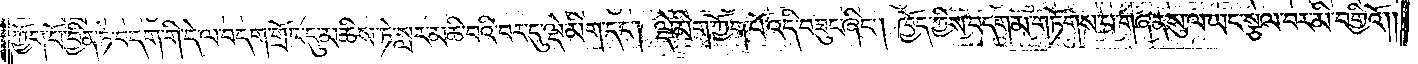ཀྱོག་པོ་བྱིན་ཏེ་བདག་གི་དེ་ལ་བདག་གྲོང་དུ་མཆིས་ཏེ་སླར་མཆི་བའི་བར་དུ་ལྡེ་མིག་དང༌། ལྡེ་མིག་ཀྱོག་པོ་འདི་བཟུང་ཞིང༌། ཁྱོད་ཀྱིས་བདག་མ་གཏོགས་པ་གཞན་སུ་ལ་ཡང་སྩལ་བར་མི་བགྱིའོ༎
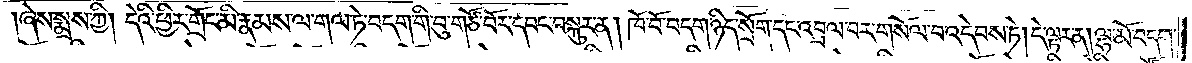།ཞེས་སྨྲས་ཀྱི། དེའི་ཕྱིར་གྲོང་མི་རྣམས་ལ་གལ་ཏེ་བདག་གི་བུ་གཙོ་བོར་དབང་བསྐུར་ན། ཁོ་བོ་བདག་ཉིད་སྲོག་དང་འབྲལ་བར་གསོལ་བ་འདེབས་ཏེ། དེ་ལྟར་ན། ལྷ་མོ་བདག་
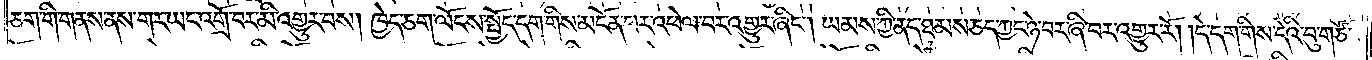ཅག་གི་གནས་ནས་གར་ཡང་འགྲོ་བར་མི་འགྱུར་བས། ཁྱེད་ཅག་ལོངས་སྤྱོད་དག་གིས་མངོན་པར་འཕེལ་བར་འགྱུར་ཞིང༌། ཡམས་ཀྱི་ནད་ཐམས་ཅད་ཀྱང་ཉེ་བར་ཞི་བར་འགྱུར་རོ། །དེ་དག་གིས་དེའི་བུ་གཙོ་
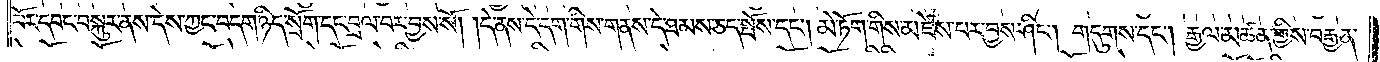བོར་དབང་བསྐུར་ནས་དེས་ཀྱང་བདག་ཉིད་སྲོག་དང་བྲལ་བར་བྱས་སོ། །དེ་ནས་དེ་དག་གིས་གནས་དེ་ཐམས་ཅད་སྤོས་དང༌། མེ་ཏོག་གིས་མཛེས་པར་བྱས་ཤིང༌། གདུགས་དང༌། རྒྱལ་མཚན་གྱིས་བརྒྱན་
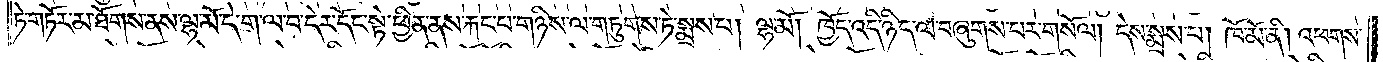ཏེ་གཏོར་མ་ཐོགས་ནས་ལྷ་མོ་དེ་ག་ལ་བ་དེར་དོང་སྟེ་ཕྱིན་ནས་རྐང་པ་གཉིས་ལ་གཏུགས་ཏེ་སྨྲས་པ། ལྷ་མོ། ཁྱོད་འདི་ཉིད་ལ་བཞུགས་པར་གསོལ། དེས་སྨྲས་པ། ཁོ་མོ་ནི། འཕགས་
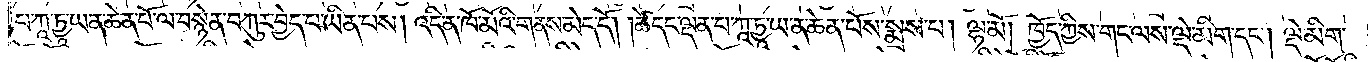པ་ཀཱ་ཏྱཱ་ཡ་ན་ཆེན་པོ་ལ་བསྙེན་བཀུར་བྱེད་པ་ཡིན་པས། འདི་ན་ཁོ་མོའི་གནས་མེད་དོ། །ཚེ་དང་ལྡན་པ་ཀཱ་ཏྱཱ་ཡ་ན་ཆེན་པོས་སྨྲས་པ། ལྷ་མོ། ཁྱོད་ཀྱིས་གང་ལས་ལྡེ་མིག་དང༌། ལྡེ་མིག་
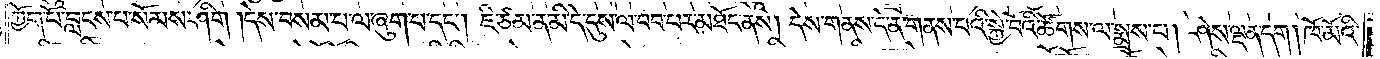ཀྱོག་པོ་བླངས་པ་སོམས་ཤིག །དེས་བསམ་པ་ལ་ཞུག་པ་དང༌། ཇི་ཙམ་ན་མི་དེ་དུས་ལ་བབ་པར་མཐོང་ནས། དེས་གནས་དེ་ན་གནས་པའི་སྐྱེ་བོའི་ཚོགས་ལ་སྨྲས་པ། ཤེས་ལྡན་དག། ཁོ་མོའི་
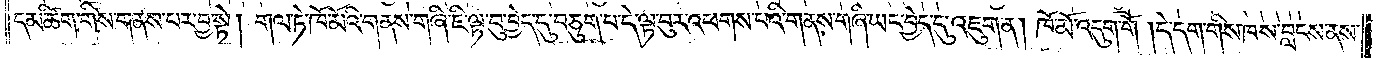དམ་ཚིག་གིས་གནས་པར་བྱ་སྟེ། གལ་ཏེ་ཁོ་མོའི་གནས་གཞི་ཇི་ལྟ་བུ་བྱད་དུ་བཅུག་པ་དེ་ལྟ་བུར་འཕགས་པའི་གནས་གཞི་ཡང་བྱེད་དུ་འཇུག་ན། ཁོ་མོ་འདུག་གོ །དེ་དག་གིས་ཁས་བླངས་ནས་
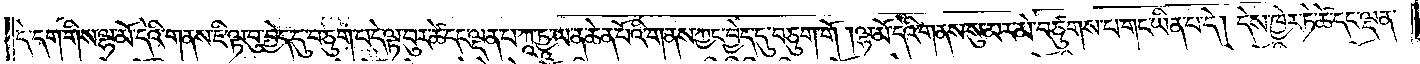དེ་དག་གིས་ལྷ་མོ་དེའི་གནས་ཇི་ལྟ་བུ་བྱེད་དུ་བཅུག་པ་དེ་ལྟ་བུར་ཚེ་དང་ལྡན་པ་ཀཱ་ཏྱཱ་ཡ་ན་ཆེན་པོའི་གནས་ཀྱང་བྱེད་དུ་བཅུག་གོ །ལྷ་མོ་དེའི་གནས་སུ་མར་མེ་བཙུགས་པ་གང་ཡིན་པ་དེ། དེས་ཁྱེར་ཏེ་ཚེ་དང་ལྡན་
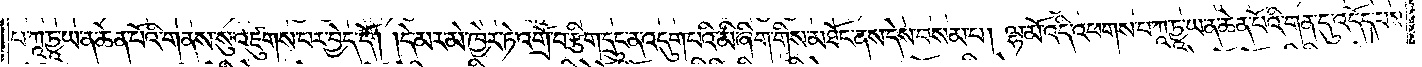པ་ཀཱ་ཏྱཱ་ཡ་ན་ཆེན་པོའི་གནས་སུ་འཛུགས་པར་བྱེད་དོ། །དེ་མར་མེ་ཁྱེར་ཏེ་འགྲོ་བ་རྩིག་དྲུང་ན་འདུག་པའི་མི་ཞིག་གིས་མཐོང་ནས་དེས་བསམ་པ། ལྷ་མོ་འདི་འཕགས་པ་ཀཱ་ཏྱཱ་ཡ་ན་ཆེན་པོའི་གན་དུ་འདོད་པས་
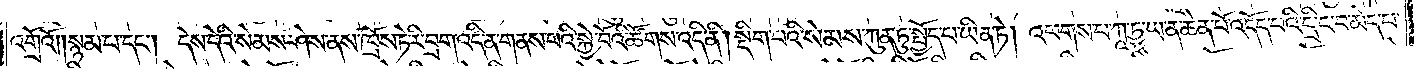འགྲོའོ༎སྙམ་པ་དང༌། དེས་དེའི་སེམས་ཤེས་ནས་ཁྲོས་ཏེ་རི་བྲག་འདི་ན་གནས་པའི་སྐྱེ་བོའི་ཚོགས་འདི་ནི། སྡིག་པའི་སེམས་ཀུན་ཏུ་སྤྱོད་པ་ཡིན་ཏེ། འཕགས་པ་ཀཱ་ཏྱཱ་ཡ་ན་ཆེན་པོ་འདོད་པའི་དྲི་ང་བ་མེད་པ་
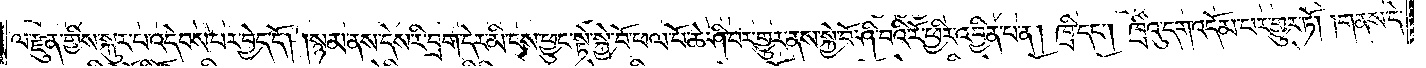ལ་རྫུན་གྱིས་སྐུར་པ་འདེབས་པར་བྱེད་དོ། །སྙམ་ནས་དེས་རི་བྲག་དེར་མི་ངས་ཕྱུང་སྟེ་སྐྱེ་བོ་ཕལ་པོ་ཆེ་ཤི་བར་གྱུར་ནས་སྐྱེ་བོ་ཤི་བའི་རོ་ཕྱིར་འབྱིན་པ་ན། ཁྲི་དང༌། ཁྲིའུ་དག་འདོམ་པར་གྱུར་ཏོ། །གནས་དེ་
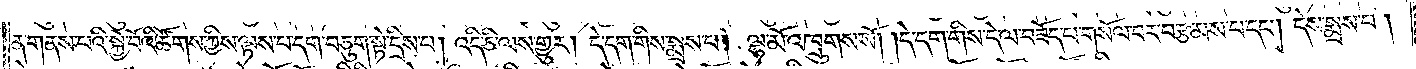ན་གནས་པའི་སྐྱེ་བོའི་ཚོགས་ཀྱིས་ལྟས་པ་དག་བཅུག་སྟེ་དྲིས་པ། འདི་ཅི་ལས་གྱུར། དེ་དག་གིས་སྨྲས་པ། ལྷ་མོ་འཁྲུགས་སོ། །དེ་དག་གིས་དེ་ལ་བཟོད་པ་གསོལ་བར་བརྩམས་པ་དང༌། དེས་སྨྲས་པ།
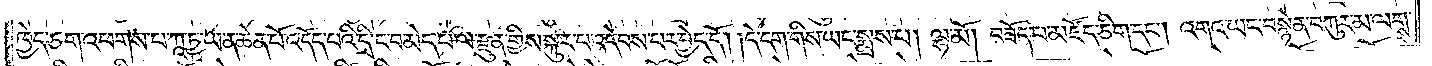ཁྱེད་ཅག་འཕགས་པ་ཀཱ་ཏྱཱ་ཡ་ན་ཆེན་པོ་འདོད་པའི་དྲི་ང་བ་མེད་པ་ལ་རྫུན་གྱིས་སྐུར་པ་འདེབས་པར་བྱེད་དོ། །དེ་དག་གིས་ཡང་སྨྲས་པ། ལྷ་མོ། བཟོད་པ་མཛོད་ཅིག་དང༌། འགའ་ཡང་བསྙེན་བཀུར་མ་ལགས་
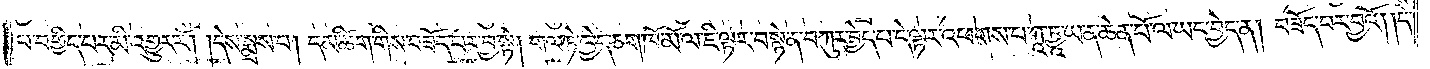པ་བགྱིད་པར་མི་འགྱུར་རོ། །དེས་སྨྲས་པ། དམ་ཚིག་གིས་བཟོད་པར་བྱ་སྟེ། གལ་ཏེ་ཁྱེད་ཅག་ཁོ་མོ་ལ་ཇི་ལྟར་བསྙེན་བཀུར་བྱེད་པ་དེ་ལྟར་འཕགས་པ་ཀཱ་ཏྱཱ་ཡ་ན་ཆེན་པོ་ལ་ཡང་བྱེད་ན། བཟོད་པར་བྱའོ༎དེ་
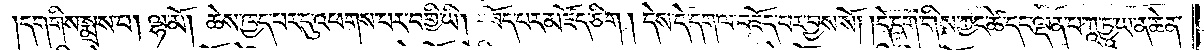།དག་གིས་སྨྲས་པ། ལྷ་མོ། ཆེས་ཁྱད་པར་དུ་འཕགས་པར་བགྱི་ཡི། བཟོད་པར་མཛོད་ཅིག །དེས་དེ་དག་ལ་བཟོད་པར་བྱས་སོ། །དེ་དག་གིས་ཀྱང་ཚེ་དང་ལྡན་པ་ཀཱ་ཏྱཱ་ཡ་ན་ཆེན་
